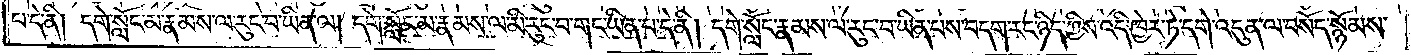པ་དེ་ནི། དགེ་སློང་མ་རྣམས་ལ་རུང་བ་ཡིན་ལ། དགེ་སློང་མ་རྣམས་ལ་མི་རུང་བ་གང་ཡིན་པ་དེ་ནི། དགེ་སློང་རྣམས་ལ་རུང་བ་ཡིན་པས་བདག་རང་ཉིད་ཀྱིས་འདི་ཁྱེར་ཏེ་དགེ་འདུན་ལ་བསོད་སྙོམས་
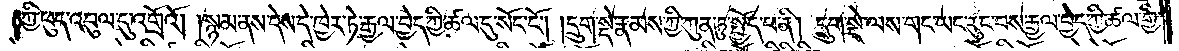ཀྱི་ཕུད་འབུལ་དུ་འགྲོའོ། །སྙམ་ནས་དེས་དེ་ཁྱེར་ཏེ་རྒྱལ་བྱེད་ཀྱི་ཚལ་དུ་སོང་ངོ༌། །དྲུག་སྡེ་རྣམས་ཀྱི་ཀུན་ཏུ་སྤྱོད་པ་ནི། དྲུག་སྡེ་ལས་གང་ཡང་རུང་བས་རྒྱལ་བྱེད་ཀྱི་ཚལ་གྱི་
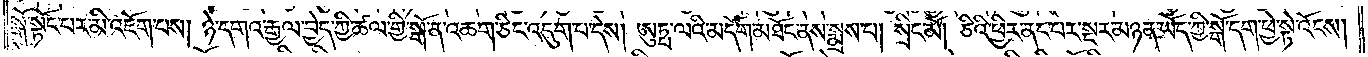སྒོ་སྟོང་པར་མི་འཇོག་པས། ཉེ་དགའ་རྒྱལ་བྱེད་ཀྱི་ཚལ་གྱི་སྒོ་ན་འཆག་ཅིང་འདུག་པ་དེས། ཨུཏྤ་ལའི་མདོག་མཐོང་ནས་སྨྲས་པ། སྲིང་མོ། ཅིའི་ཕྱིར་ནང་པར་སྔར་མཉན་ཡོད་ཀྱི་སྒོ་དག་ཕྱེ་སྟེ་འོངས།
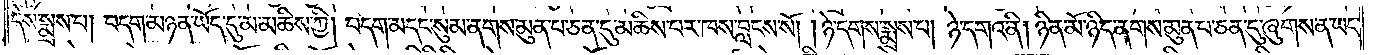དེས་སྨྲས་པ། བདག་མཉན་ཡོད་དུ་མ་མཆིས་ཀྱི། བདག་མདང་སུམ་ནགས་མུན་པ་ཅན་དུ་མཆིས་པར་ཁས་བླངས་སོ། །ཉེ་དགས་སྨྲས་པ། ཉེ་དགའ་ནི། ཉིན་མོ་ཉིད་ནགས་མུན་པ་ཅན་དུ་ཞུགས་ན་ཡང་
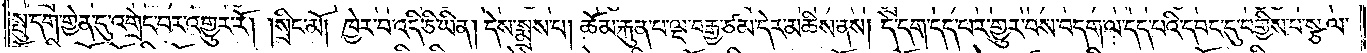སྤུ་དག་གྱེན་དུ་འགྲེང་བར་འགྱུར་རོ། །སྲིང་མོ། ཁྱེར་བ་འདི་ཅི་ཡིན། དེས་སྨྲས་པ། ཆོམ་རྐུན་པ་ལྔ་བརྒྱ་ཙམ་དེར་མཆིས་ནས། དེ་དག་དད་པར་གྱུར་པས་བདག་ལ་དད་པའི་དབང་དུ་བགྱིས་པ་སྩལ་
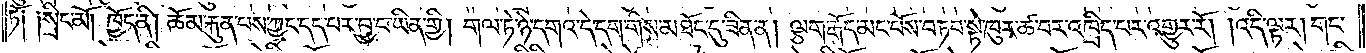ཏོ༑ ༑སྲིང་མོ། ཁྱོད་ནི། ཆོམ་རྐུན་པས་ཀྱང་དད་པར་བྱ་བ་ཡིན་གྱི། གལ་ཏེ་ཉེ་དགའ་དེ་དག་གིས་མཐོང་དུ་ཟིན་ན། ལྕག་རྒོད་མང་པོས་བཏབ་སྟེ་ཁུར་ཚ་བར་འཁྲིད་པར་འགྱུར་རོ། །འདི་ལྟར། གང་
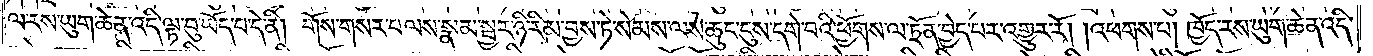ལ་རས་ཡུག་ཆེན་འདི་ལྟ་བུ་ཡོད་པ་དེ་ནི། གོས་གསར་པ་ལས་སྣམ་སྦྱར་ཉི་རིམ་བྱས་ཏེ་སེམས་ལས་ཆུང་ངུས་དགེ་བའི་ཕྱོགས་ལ་ཏྲོན་བྱེད་པར་འགྱུར་རོ། །འཕགས་པ། ཁྱོད་རས་ཡུག་ཆེན་འདི་
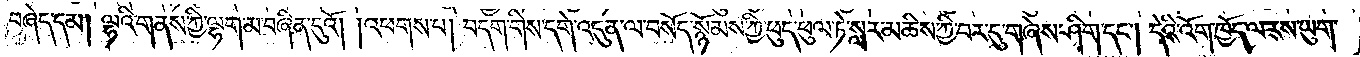བཞེད་དམ། ལྷའི་གནས་ཀྱི་ལྷག་མ་བཞིན་དུའོ། །འཕགས་པ། བདག་གིས་དགེ་འདུན་ལ་བསོད་སྙོམས་ཀྱི་ཕུད་ཕུལ་ཏེ་སླར་མཆིས་ཀྱི་བར་དུ་གཞེས་ཤིག་དང༌། དེའི་འོག་ཁྱོད་ལ་རས་ཡུག་
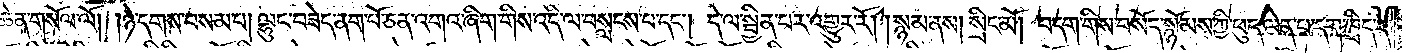ཆེན་གསོལ་ལོ། །ཉེ་དགས་བསམ་པ། ལྷུང་བཟེད་ནག་པོ་ཅན་འགའ་ཞིག་གིས་འདི་ལ་བསླངས་པ་དང༌། དེ་ལ་སྦྱིན་པར་འགྱུར་རོ། །སྙམ་ནས། སྲིང་མོ། བདག་གིས་བསོད་སྙོམས་ཀྱི་ཕུད་ལེན་པ་དག་ཁྲིད་དེ་
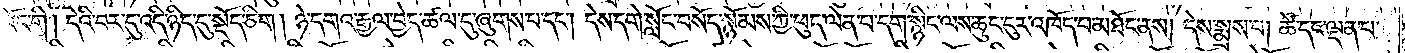འོང་གི། དེའི་བར་དུ་འདི་ཉིད་དུ་སྡོད་ཅིག །ཉེ་དགའ་རྒྱལ་བྱེད་ཚལ་དུ་ཞུགས་པ་དང༌། དེས་དགེ་སློང་བསོད་སྙོམས་ཀྱི་ཕུད་ལེན་པ་དག་སྙིང་ལས་ཆུང་ངུར་འཁོད་པ་མཐོང་ནས། དེས་སྨྲས་པ། ཚེ་དང་ལྡན་པ་
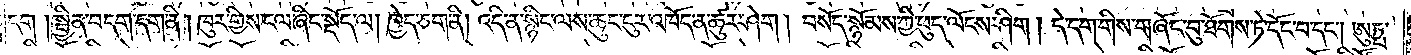དག །སྦྱིན་བདག་དག་ནི། ཁུར་གྱིས་ངལ་ཞིང་སྡོད་ལ། ཁྱེད་ཅག་ནི། འདི་ན་སྙིང་ལས་ཆུང་ངུར་འཁོད་ན་ཚུར་ཤེག །བསོད་སྙོམས་ཀྱི་ཕུང་ལོངས་ཤིག །དེ་དག་གིས་གཞོང་བུ་ཐོགས་ཏེ་དོང་བ་དང༌། ཨུཏྤ་
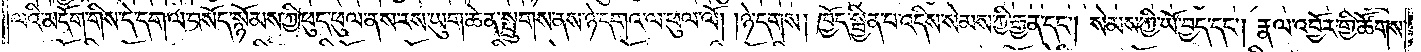ལའི་མདོག་གིས་དེ་དག་ལ་བསོད་སྙོམས་ཀྱི་ཕུད་ཕུལ་ནས་རས་ཡུག་ཆེན་སྤྲུགས་ནས་ཉེ་དགའ་ལ་ཕུལ་ལོ། །ཉེ་དགས། ཁྱོད་སྦྱིན་པ་འདིས་སེམས་ཀྱི་རྒྱན་དང༌། སེམས་ཀྱི་ཡོ་བྱད་དང༌། རྣལ་འབྱོར་གྱི་ཚོགས་
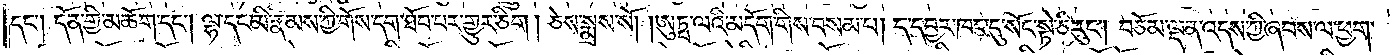དང༌། དོན་གྱི་མཆོག་དང༌། ལྷ་དང་མི་རྣམས་ཀྱི་གོས་དག་ཐོབ་པར་གྱུར་ཅིག །ཅེས་སྨྲས་སོ། །ཨུཏྤ་ལའི་མདོག་གིས་བསམ་པ། ད་དབྱར་ཁང་དུ་སོང་སྟེ་ཅི་རུང༌། བཅོམ་ལྡན་འདས་ཀྱི་ཞབས་ལ་ཕྱག་
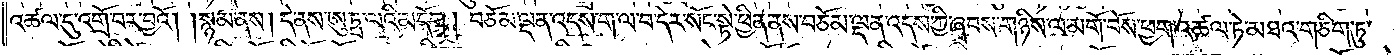འཚལ་དུ་འགྲོ་བར་བྱའོ། །སྙམ་ནས། དེ་ནས་ཨུཏྤ་ལའི་མདོག ། བཅོམ་ལྡན་འདས་ག་ལ་བ་དེར་སོང་སྟེ་ཕྱིན་ནས་བཅོམ་ལྡན་འདས་ཀྱི་ཞབས་གཉིས་ལ་མགོ་བོས་ཕྱག་འཚལ་ཏེ་མཐའ་གཅིག་ཏུ་
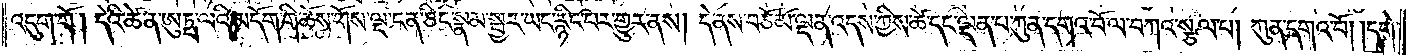འདུག་གོ །དེའི་ཚེ་ན་ཨུཏྤ་ལའི་མདོག་གི་ཆོས་གོས་ལྔ་ངན་ཅིང་སྣམ་སྦྱར་ཡང་རྙིང་པར་གྱུར་ནས། དེ་ནས་བཅོམ་ལྡན་འདས་ཀྱིས་ཚེ་དང་ལྡན་པ་ཀུན་དགའ་བོ་ལ་བཀའ་སྩལ་པ། ཀུན་དགའ་བོ། །དགེ་
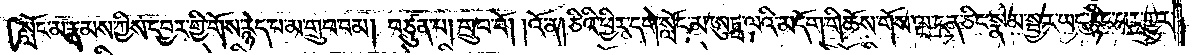སློང་མ་རྣམས་ཀྱིས་དབྱར་གྱི་གོས་རྙེད་པ་མ་གྲུབ་བམ། བཙུན་པ། གྲུབ་བོ། །འོ་ན། ཅིའི་ཕྱིར་དགེ་སློང་མ་ཨུཏྤ་ལའི་མདོག་གི་ཆོས་གོས་ལྔ་ངན་ཅིང་སྣམ་སྦྱར་ཡང་རྙིང་པར་གྱུར།
